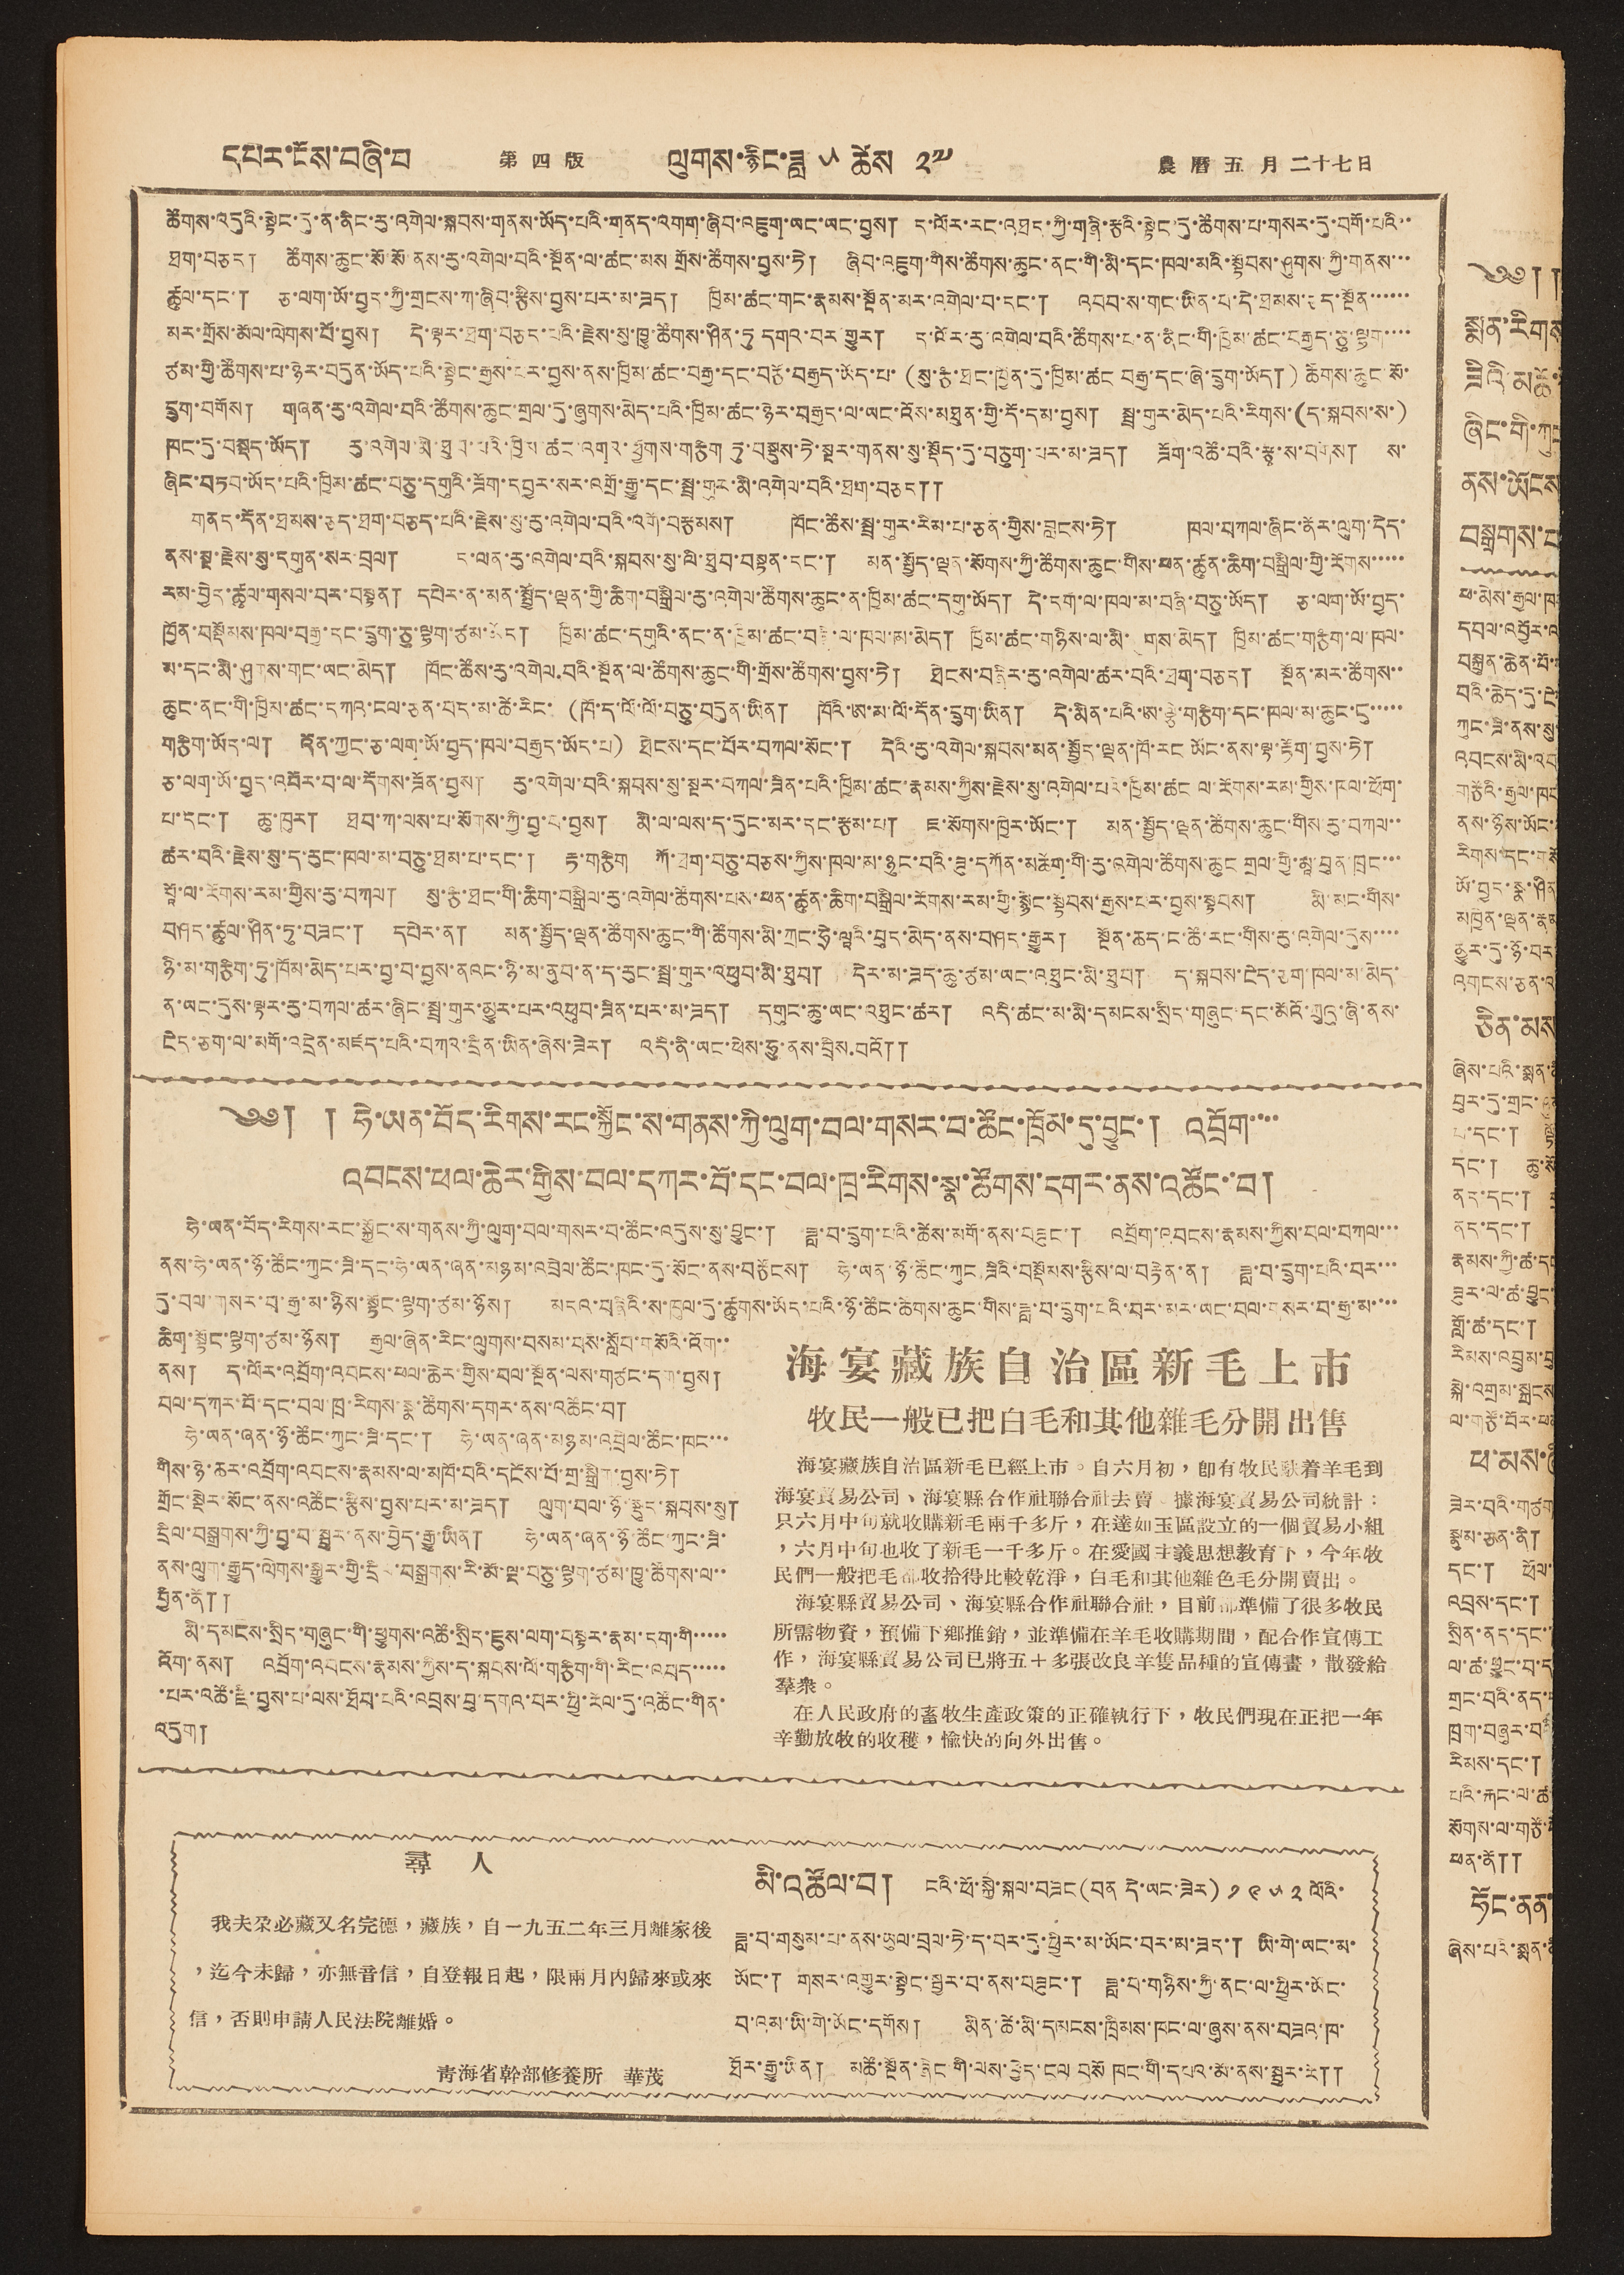དཔར་ངོས་བཞི་བ 第 四 版 ལུགས་རྙིང་ཟླ ༥ ཚེས ༢༧ 農 曆 五 月 二十七日
ཚོགས་འདུའི་སྟེང་དུ་ན་ནིང་རུ་འགེལ་སྐབས་གནས་ཡོད་པའི་གནད་འགག་ཞིབ་འཇུག་ཡང་ཡང་བྱས། ད་ལོར་རང་འཐད་ཀྱི་གཞི་རྩའི་སྟེང་དུ་ཚོགས་པ་གསར་དུ་བགོ་པའི་་
ཐག་བཅད། ཚོགས་ཆུང་སོ་སོ་ནས་རུ་འགེལ་བའི་སྔོན་ལ་ཚང་མས གྲོས་ཚོགས་བྱས་ཏེ། ཞིབ་འཇུག་གིས་ཚོགས་ཆུང་ནང་གི་མི་དང་ཁལ་མའི་སྟོབས་ཤུགས་ཀྱི་གནས་་་
ཚུལ་དང་། ཅ་ལག་ཡོ་བྱད་ཀྱི་གྲངས་ཀ་ཞིབ་རྩིས་བྱས་པར་མ་ཟད། ཁྱིམ་ཚང་གང་རྣམས་སྔོན་མར་འགེལ་བ་དང་། འབབ་ས་གང་ཡིན་པ་དེ་ཐབས་ཅད་སྔོན་་་་་་
མར་གྲོས་མོལ་ལེགས་པོ་བྱས། དེ་ལྟར་ཐག་བཅད་པའི་རྗེས་སུ་ཁྱུ་ཚོགས་ཤིན་ཏུ དགའ་བར་གྱུར། ད་ལོར་རུ་འགེལ་བའི་ཚོགས་པ་ན་ནིང་གི་ཁྱིམ་ཚང་བརྒྱད་ཅུ་ལྷག་་་་
ཙམ་གྱི་ཚོགས་པ་ཉེར་བདུན་ཡོད་པའི་སྟེང་རྒྱས་པར་བྱས་ནས་ཁྱིམ་ཚང་བརྒྱ་དང་བཅོ་བརྒྱད་ཡོད་པ་ (སུ་ཅཾ་ཐང་ཁྱིན་དུ་ཁྱིམ་ཚང བརྒྱ་དང་ཞེ་དྲུག་ཡོད།) ཚོགས་ཆུང་སོ་
དྲུག་བགོས། གཞན་རུ་འགེལ་བའི་ཚོགས་ཆུང་གྲལ་དུ་ཞུགས་མེད་པའི་ཁྱིམ་ཚང་ཉེར་བརྒྱད་ལ་ཡང་འོས་མཐུན་གྱི་དོ་དམ་བྱས། སྦྲ་གུར་མེད་པའི་རིགས་(ད་སྐབས་ས་)
ཁང་དུ་བསྡད་ཡོད། རུ་འགེལ་མི་ཐུབ་པའི་ཁྱིམ་ཚང་འགའ་ཕྱོགས་གཅིག ཏུ་བསྡུས་ཏེ་སྔར་གནས་སུ་སྡོད་དུ་བཅུག་པར་མ་ཟད། ཟོག་འཚོ་བའི་རྩྭ་ས་བགོས། ས་
ཞིང་བཏབ་ཡོད་པའི་ཁྱིམ་ཚང་བཅུ་དགུའི་ཟོག་དབྱར་སར་འགྲོ་རྒྱུ་དང་སྦྲ་གུར་མི་འགེལ་བའི་ཐག་བཅད༎
གནད་དོན་ཐམས་ཅད་ཐག་བཅད་པའི་རྗེས་སུ་རུ་འགེལ་བའི་འགོ་བརྩམས། ཁོང་ཚོས་སྦྲ་གུར་རིམ་པ་ཅན་གྱིས་བླངས་ཏེ། ཁལ་བཀལ་ཞིང་ནོར་ལུག་དེད་
ནས་སྔ་རྗེས་སུ་དགུན་སར་བྲལ། ད་ལན་རུ་འགེལ་བའི་སྐབས་སུ་ལི་ཐུབ་བསྟན་དང་། མན་སྤྱོད་ལྡན་སོགས་ཀྱི་ཚོགས་ཆུང་གིས་ཕན་ཚུན་ཆིག་བསྒྲིལ་གྱི་རོགས་་་་་
རམ་བྱེད་ཚུལ་གསལ་བར་བསྟན། དཔེར་ན་མན་སྤྱོད་ལྡན་གྱི་ཆིག་བསྒྲིལ་རུ་འགེལ་ཚོགས་ཆུང་ན་ཁྱིམ་ཚང་དགུ་ཡོད། དེ་དག་ལ་ཁལ་མ་བཞི་བཅུ་ཡོད། ཅ་ལག་ཡོ་བྱད་
ཁྱོན་བསྡོམས་ཁལ་བརྒྱ་དང་དྲུག་ཅུ་ལྷག་ཙམ་ཡོད། ཁྱིམ་ཚང་དགུའི་ནང་ན་ཁྱིམ་ཚང་བཞི་ལ་ཁལ་མ་མེད། ཁྱིམ་ཚང་གཉིས་ལ་མི་ཤུགས་མེད། ཁྱིམ་ཚང་གཅཾག་ལ་ཁལ་
མ་དང་མི་ཤུགས་གང་ཡང་མེད། ཁོང་ཚོས་རུ་འགེལ་བའི་སྔོན་ལ་ཚོགས་ཆུང་གི་གྲོས་ཚོགས་བྱས་ཏེ། ཐེངས་བཞིར་རུ་འགེལ་ཚར་བའི་ཐག་བཅད། སྔོན་མར་ཚོགས་་
ཆུང་ནང་གི་ཁྱིམ་ཚང་དཀའ་ངལ་ཅན་པད་མ་ཚེ་རིང་ (ཁོ་ད་ལོ་ལོ་བཅུ་བདུན་ཡིན། ཁོའི་ཨ་མ་ལོ་དོན་དྲུག་ཡིན། དེ་མིན་པའི་ཨ་ལྕེ་གཅིག་དང་ཁལ་མ་ཆུང་ངུ་་་་་
གཅིག་ཡོད་ལ། འོན་ཀྱང་ཅ་ལག་ཡོ་བྱད་ཁལ་བརྒྱད་ཡོད་པ) ཐེངས་དང་པོར་བཀལ་སོང་། དེའི་རུ་འགེལ་སྐབས་མན་སྤྱོད་ལྡན་ཁོ་རང ཡོང་ནས་ལྟ་རྟོག་བྱས་ཏེ།
ཅ་ལག་ཡོ་བྱད་འབོར་བ་ལ་དོགས་ཟོན་བྱས། རུ་འགེལ་བའི་སྐབས་སུ་སྔར་བཀལ་ཟིན་པའི་ཁྱིམ་ཚང་རྣམས་ཀྱིས་རྗེས་སུ་འགེལ་པའི་ཁྱིམ་ཚང ལ་རོགས་རམ་གྱིས་ཁལ་ཕོག་
པ་དང་། ཆུ་ཁུར། ཐབ་ཀ་ལས་པ་སོགས་ཀྱི་བྱ་བ་བྱས། མི་ལ་ལས་ད་དུང་མར་དང་རྩམ་པ། ཇ་སོགས་ཁྱེར་ཡོང་། མན་སྤྱོད་ལྡན་ཚོགས་ཆུང་གིས་རུ་བཀལ་་
ཚར་བའི་རྗེས་སུ་ད་རུང་ཁལ་མ་བཅུ་ཐམ་པ་དང་། རྟ་གཅིག ཀོ་ཐག་བཅུ་བཅས་ཀྱིས་ཁལ་མ་ཉུང་བའི་ཟུ་དཀོན་མཆོག་གི་རུ་འགེལ་ཚོགས་ཆུང གྲལ་གྱི་མཱ་བུན་ཁྲང་་་
པཱོ་ལ་རོགས་རམ་གྱིས་རུ་བཀལ། སུ་ཅི་ཐང་གི་ཆིག་བསྒྲིལ་རུ་འགེལ་ཚོགས་པས་ཕན་ཚུན་ཆིག་བསྒྲིལ་རོགས་རམ་གྱི་སྙིང་སྟོབས་རྒྱས་པར་བྱས་སྟབས། མི་མང་གིས་
བཤད་ཚུལ་ཤིན་ཏུ་བཟང་། དཔེར་ན། མན་སྤྱོད་ལྡན་ཚོགས་ཆུང་གི་ཚོགས་མི་ཀྲང་ཧྲེ་ལཱའི་བུད་མེད་ནས་བཤད་རྒྱུར། སྔོན་ཆད་ང་ཚོ་རང་གིས་རུ་འགེལ་དུས་་་་
ཉི་མ་གཅིག་ཏུ་ཁོམ་མེད་པར་བྱ་བ་བྱས་ནའང་ཉི་མ་ནུབ་ན་ད་རུང་སྦྲ་གུར་བཕུབ་མི་ཐུབ། དིར་མ་ཟད་ཆུ་ཙམ་ཡང་འཐུང་མི་ཐུབ། ད་སྐབས་ངེད་ཅག་ཁལ་མ མེད་
ན་ཡང་དུས་ལྟར་རུ་བཀལ་ཚར་ཞིང་སྦྲ་གུར་མྱུར་པར་འཕུབ་ཟིན་པར་མ་ཟད། དགུང་ཆུ་ཡང་འཐུང་ཚར། འདི་ཚང་མ་མི་དམངས་སྲིད་གཞུང་དང་མོའོ་ཀྲུའུ་ཞི་ནས་
ངེད་ཅག་ལ་མགོ་འདྲེན་མཛད་པའི་བཀའ་དྲིན་ཡིན་ཞེས་ཟེར། འདི་ནི་ཡང་ཕེས་ཧྲུ་ནས་བྲིས བའོ༎
༄༅། ། ཧེ་ཡན་བོད་རོགས་རང་སྐྱོང་ས་གནས་ཀྱི་ལུག་བལ་གསར་བ་ཚོང་ཁྲོམ་དུ་བྱུང་། འབྲོག་་་་
འབངས་ཕལ་ཆེར་གྱིས་བལ་དཀར་བོ་དང་བལ་ཁྲ་རིགས་སྣ་ཚོགས་དགར་ནས་འཚོང་བ།
ཧེ་ཡན་བོད་རིགས་རང་སྐྱོང་ས་གནས་ཀྱི་ལུག་བལ་གསར་བ་ཚོང་འདུས་སུ་བྱུང་། ཟླ་བ་དྲུག་པའི་ཚེས་མགོ་ནས་བཟུང་། འབྲོག་འབངས་རྣམས་ཀྱིས་བལ་བཀལ་་་
ནས་ཧེ་ཡན་ཉོ་ཚོང་ཀུང་ཟི་དང་ཧེ་ཡན་ཞན་མཉམ་འབྲེལ་ཚོང་ཁང་དུ་སོང་ནས་བཅོངས། ཧེ་ཡན་ཉོ་ཚོང་ཀུང་ཟིའི་བསྡོམས་རྩིས་ལ་བརྟེན་ན། ཟླ་བ་དྲུག་པའི་བར་་་
དུ་བལ་གསར་བ་རྒྱ་མ་ཉིས་སྟོང་ལྷག་ཙམ་ཉོས། མདའ་བཞིའི་ས་ཁུལ་དུ་ཚུགས་ཡོད་པའི་ཉོ་ཚོང་ཆོགས་ཆུང་གིས་ཟླ་བ་དྲུག་པའི་བར་མར་ཡང་བལ་གསར་བ་རྒྱ་མ་་་་
ཆིག་སྟོང་ལྷག་ཙམ་ཉོས། རྒྱལ་ཞེན་རིང་ལུགས་བསམ་པས་སློབ་གསོའི་འོག་་
ནས། ད་ལོར་འབྲོག་འབངས་ཕལ་ཆེར་གྱིས་བལ་སྔོན་ལས་གཙང་དག་བྱས།
བལ་དཀར་པོ་དང་བལ་ཁྲ་རིགས་སྣ་ཚོགས་དགར་ནས་འཚོང་བ།
ཧེ་ཡན་ཞན་ཉོ་ཚོང་ཀུང་ཟི་དང་། ཧེ་ཡན་ཞན་མཉམ་འབྲེལ་ཚོང་ཁང་་་
གིས་ཉེ་ཆར་འབྲོག་འབངས་རྣམས་ལ་མཁོ་བའི་དངོས་པོ་གྲ་སྒྲིག་བྱས་ཏེ།
གྲོང་སྡེར་སོང་ནས་འཚོང་རྩིས་བྱས་པར་མ་ཟད། ལུག་བལ་ཉོ་སྡུད་སྐབས་སུ།
དྲིལ་བསྒྲགས་ཀྱི་བྱ་བ་སྦྲར་ནས་བྱེད་རྒྱུ་ཡིན། ཧེ་ཡན་ཞན་ཉོ་ཚོང་ཀུང་ཟི་
ནས་ལུག་རྒྱུད་ལེགས་སྒྱུར་གྱི་དྲིལ་བསྒྲགས་རི་མོ་ལྔ་བཅུ་ལྷག་ཙམ་ཁྱུ་ཚོགས་ལ་་
བྱིན་ནོ༎
མི་དམངས་སྲིད་གཞུང་གི་ཕྱུགས་འཚོ་སྲིད་ཇུས་ལག་བསྟར་རྣམ་དག་གི་་་་་
འོག་ནས། འབྲོག་འབངས་རྣམས་ཀྱིས་ད་སྐབས་ལོ་གཅིག་གི་རིང་འབད་་་་་
་པར་འཚོ་རྗི་བྱས་པ་ལས་ཐོབ་པའི་འབྲས་བུ་དགའ་བར་ཕྱི་རོལ་དུ་འཚོང་གིན་
འདུག།
海晏藏族自治區新毛上市
牧民一般已把白毛和其他雜毛分開出售
海晏藏族自治區新毛已經上市。自六月初，即有牧民䭾着羊毛到
海晏貿易公司、海晏縣合作社聯合社去賣。據海晏貿易公司統計：
只六月中旬就收購新毛兩千多斤，在達如玉區設立的一個貿易小組
，六月中旬也收了新毛一千多斤。在愛國主義思想教育下，今年牧
民們一般把毛都收拾得比較乾淨，白毛和其他雜色毛分開賣出。
海晏縣貿易公司、海晏縣合作社聯合社，目前都準備了很多牧民
所需物資，預備下鄉推銷，並準備在羊毛收購期間，配合作宣傳工
作，海晏縣貿易公司已將五十多張改良羊隻品種的宣傳畫，散發給
羣衆。
在人民政府的畜牧生產政策的正確執行下，牧民們現在正把一年
辛勤放牧的收穫，愉快的向外出售。
尋 人
我夫尕必藏又名完德，藏族，自一九五二年三月離家後
，迄今未歸，亦無音信，自登報日起，限兩月內歸來或來
信，否則申請人民法院離婚。
青海省幹部休養所 華茂
མི་འཚོལ་བ། ངའི་ཕོ་སྐྱེ་སྐལ་བཟང (བན དེ་ཡང་ཟེར) ༡ ༩ ༥ ༢ ལོའི་
ཟླ་བ་གསུམ་པ་ནས་ཡུལ་བྲལ་ཏེ་ད་བར་དུ་ཕྱིར་མ་ཡོང་བར་མ་ཟད་། ཡི་གེ་ཡང་མ་
ཡོང་། གསར་འགྱུར་སྟེང་སྦྱར་བ་ནས་བཟུང་། ཟླ་བ་གཉིས་ཀྱི་ནང་ལ་ཕྱིར་ཡོང་
བ་འམ་ཡི་གེ་ཡོང་དགོས། མིན་ཚེ་མི་དམངས་ཁྲིམས་ཁང་ལ་ཞུས་ནས་བཟའ་ཁ་
ཐོར་རྒྱུ་ཡིན། མཚོ་སྔོན་ཞིང་གི་ལས་བྱེད་ངལ བསོ ཁང་གི་དཔའ་མོ་ནས་སྦྱར་རེ༎
༄༅། །
སྨན་རིགས་
ཟིའི་མཚོ་
ཞིང་གི་ཀུང
ནས་ཡོངས
བསྒྲགས་པ
ཕ་མེས་རྒྱལ་ཁ
དབལ་འབྱོར་ལ
བསྐྲུན་ཆེན་པོ་
བའི་ཆེད་དུ་ངེ
ཀུང་ཟི་ནས་སུ་
འབངས་མི་འབ
གཙོའི་རྒྱལ་ཁབ
ནས་ཉོས་ཡོང་
རིགས་དང་གསོ
ཡོ་བྱད་སྣ་ཤིན
མཁྱེན་ལྡན་རྣམ
མྱུར་དུ་ཉོ་བར
འགངས་ཅན་འ
ཅིན་མས
ཞེས་པའི་སྨན་ནི
བུར་དུ་གྲང་
པ་དང་། ལྟོ
དང་། ཆུ་སོ
ནད་དང་།
ནད་དང་།
རྣམས་ཀྱི་ཚ་དང
ཟུར་ལ་ཚ་བྱུང་
གློ་ཚ་དང་།
རིམས་འབྲུམ་བུ
སྐེ་འགྲམ་སྐྲངས
ལ་གཙོ་བོར་ཕན
ཕ་མས་ཞི
ཟེར་བའི་གཙག
སྣུམ་ཅན་ནི།
དང་། ཕོལ་
འབྲས་དང་།
སྲིན་ནད་དང་་
ལ་ཚ་བྱུང་བ་ད
གྲང་བའི་ནད་
ཁྲག་བཞུར་བའི་
རིམས་དང་།
པའི་རྐང་ལ་ཚ་
སོགས་ལ་གཙོ་བོ
ཕན་ནོ༎
ཧོང་ནན་
ཞེས་པའི་སྨན་ནི
